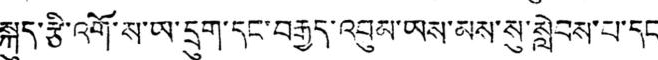སྐུད་རྩི་འགོ་ས་ཡ་དྲུག་དང་བརྒྱད་འབུམ་ཡས་མས་སུ་སླེབས་པ་དང་
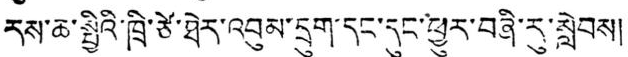རས་ཆ་སྤྱིའི་ཁྲི་ཙེ་ཐེར་འབུམ་དྲུག་དང་དུང་ཕྱུར་བཞི་རུ་སླེབས།
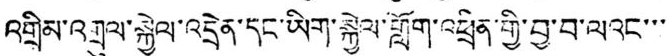འགྲིམ་འགྲུལ་སྐྱེལ་འདྲེན་དང་ཡིག་སྐྱེལ་གློག་འཕྲིན་གྱི་བྱ་བ་ལའང་་་་
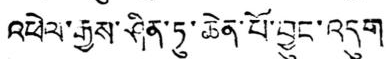འཕེལ་རྒྱས་ཤིན་ཏུ་ཆེན་པོ་བྱུང་འདུག
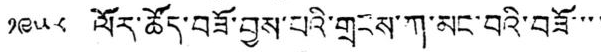༡༩༥༨ ལོར་ཚོད་བཟོ་བྱས་པའི་གྲངས་ཀ་མང་བའི་བཟོ་་་་
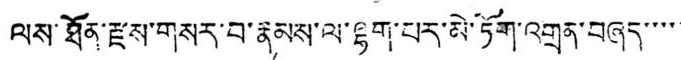ལས་ཐོན་རྫས་གསར་བ་རྣམས་ལ་ལྷག་པར་མེ་ཏོག་འགྲན་བཞད་་་་་
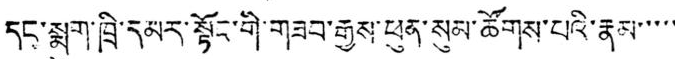དང་སྨུག་ཁྲི་དམར་སྟོང་གི་གཟབ་རྒྱས་ཕུན་སུམ་ཚོགས་པའི་རྣམ་་་་་་
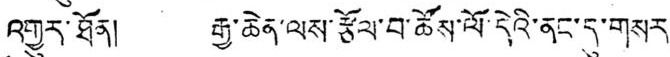འགྱུར་ཐོན། རྒྱ་ཆེན་ལས་རྩོལ་བ་ཚོས་ལོ་དེའི་ནང་དུ་གསར་
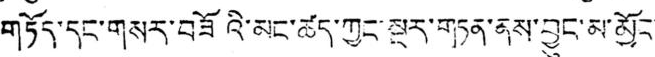གཏོད་དང་གསར་བཟོའི་མང་ཚད་ཀྱང་སྔར་གཏན་ནས་བྱུང་མ་མྱོང་་
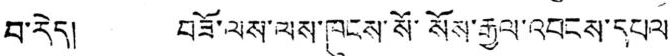བ་རེད། བཟོ་ལས་ལས་ཁུངས་སོ་སོས་རྒྱལ་འབངས་དཔལ་
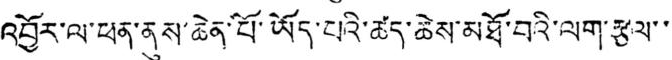འབྱོར་ལ་ཕན་ནུས་ཆེན་པོ་ཡོད་པའི་ཚད་ཆེས་མཐོ་བའི་ལག་རྩལ་་
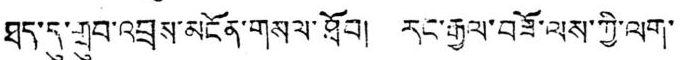ཐད་དུ་གྲུབ་འབྲས་མངོན་གསལ་ཐོབ། རང་རྒྱལ་བཟོ་ལས་ཀྱི་ལག་
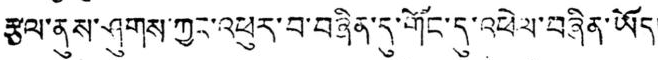རྩལ་ནུས་ཤུགས་ཀྱང་འཕུར་བ་བཞིན་དུ་གོང་དུ་འཕེལ་བཞིན་ཡོད།
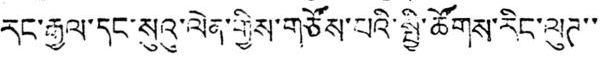རང་རྒྱལ་དང་སུའུ་ལེན་གྱིས་གཙོས་པའི་སྤྱི་ཚོགས་རིང་ལུཊ་་
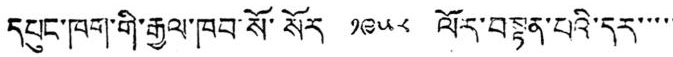དཔུང་ཁག་གི་རྒྱལ་ཁབ་སོ་སོར ༡༩༥༨ ལོར་བསྟན་པའི་དར་་་་་
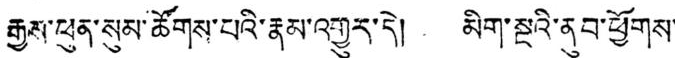རྒྱས་ཕུན་སུམ་ཚོགས་པའི་རྣམ་འགྱུར་དེ། མིག་སྔིའ་ནུབ་ཕྱོགས་
